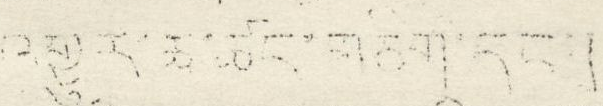འགྱུར་ཆ་ཙང་གཅིག་དང་།
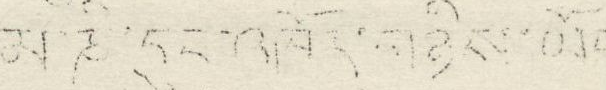མ་ཎི་དུང་འཁོར་གཉིས་ཡོད་
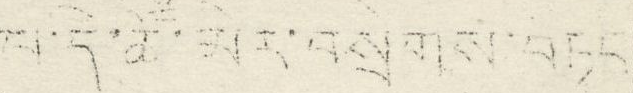པ་དེ་ཚོ་མེར་བསྲེགས་བཏང
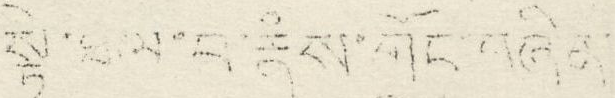སྟེ་ཐལ་བ་རྣཾས་གོང་བཞིན་་
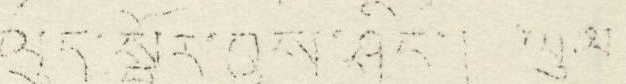ལུད་སྦྱོར་བྱས་ཤིང་། ཡུལ་
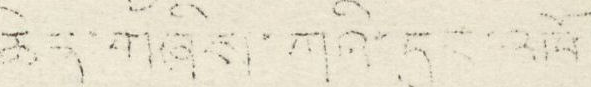ཆེན་གཞིས་ཀའི་དུང་འཁོར་
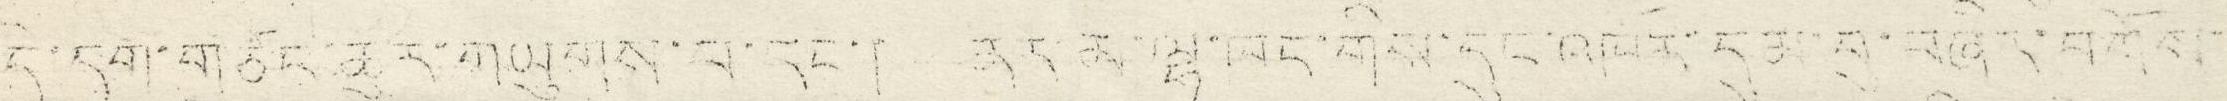དེ་དག་གཙང་ཆུར་གཡུགས་པ་དང་། ནར་མ་ལྷ་ཁང་གིས་དུང་འཁོར་དུ་མ་བུ་བཞིར་བཀོས་
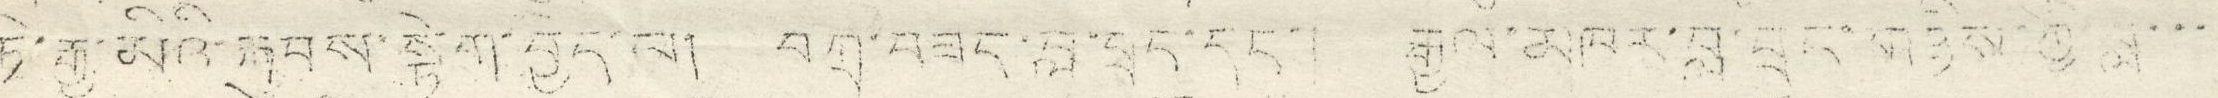ཏེ་རྒྱ་མིའི་རྐུབས་སྟེག་བྱེད་པ། བཀྲ་བཟད་བླ་བྲང་དང་། རྒྱལ་མཁར་བླ་བྲང་གཉིས་ཀྱི་བླ་་་
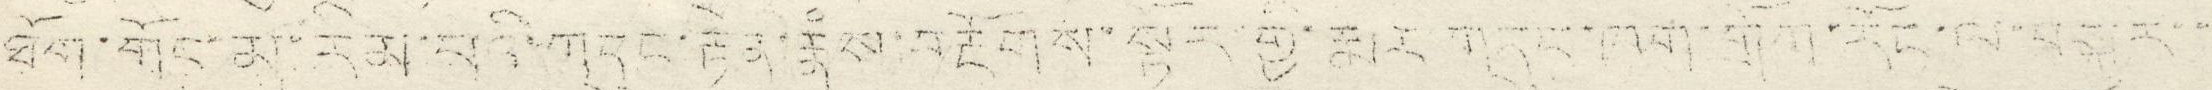ཐོག་གོང་མ་རིམ་པའི་གདུང་རྟེན་རྣཾས་བརྔོགས་སྟོར་གྱི་རྨར་གདུང་ཁག་གོས་རོང་ལ་བསྐུར་་
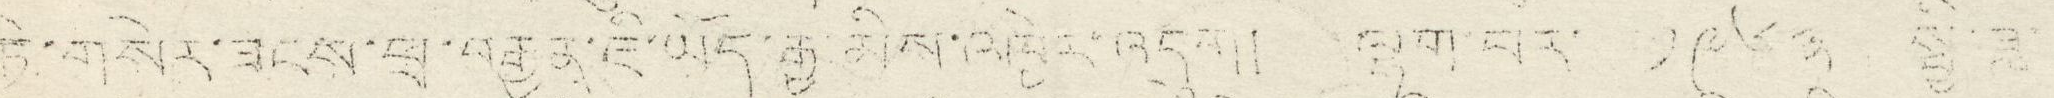ཏེ་གསེར་ཟངས་ཕྲ་བརྒྱན་ཇི་ཡོད་རྒྱ་མིས་འཁྱེར་འདུག། ལྷག་པར་ ༡༩༦༣ སྤྱི་ཟླ་
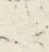༦
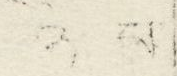ཉེ པ
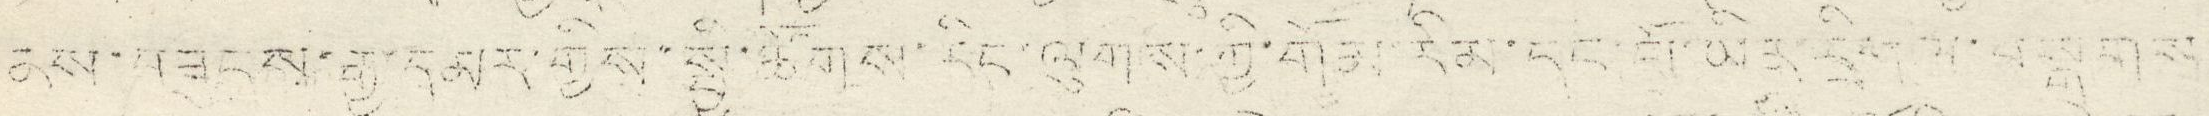ནས་བཟུངས་རྒྱ་དམར་གྱིས་སྤྱི་ཚོགས་རིང་ལུགས་ཀྱི་གོམ་རིམ་དང་པོ་ཡིན་དྲིན་ལ་བསྒྲགས
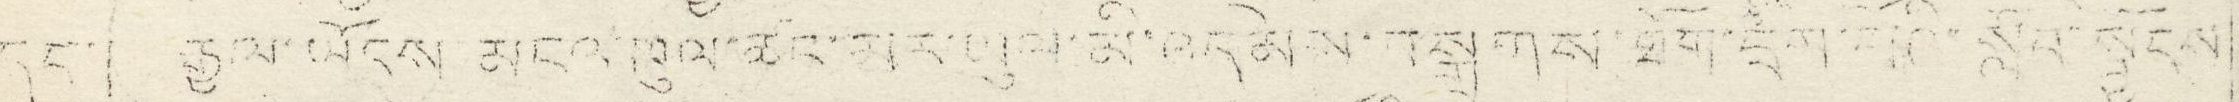དང་། རྒྱལ་ཡོངས མངའ་ཁུལ་ཚང་མར་ཡུལ་མི་འདེམས་བསྒྲགས་ཐོག་དྲག་གཞི་སློབ་སྦྱོངས
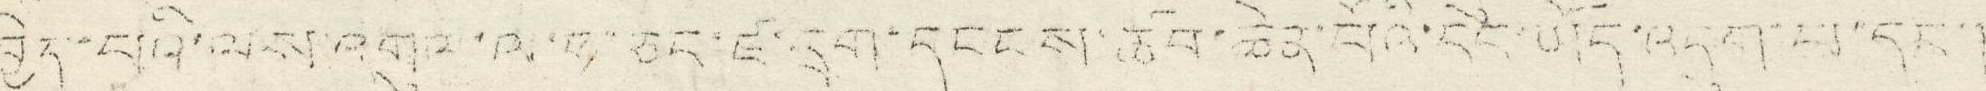བྱེད་པའི་ལས་འགུལ་ལ་ཧ་ཅང་ཛ་དྲག་དངངས་ཚབ་ཆེན་པོའི་དེང་ཡོད་འདུག་པ་དང་།
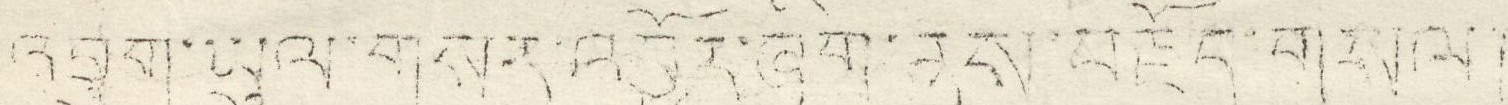འབྲུག་ཡུལ་གསར་འབྱོར་ཞག་ནས་བརྗོད་གསལ།
